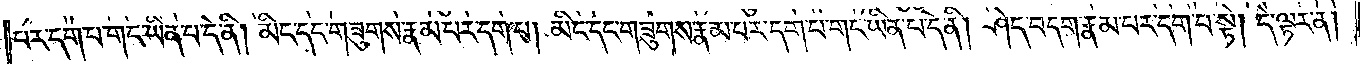པར་དག་པ་གང་ཡིན་པ་དེ་ནི། མིང་དང་གཟུགས་རྣམ་པར་དག་པ། མིང་དང་གཟུགས་རྣམ་པར་དག་པ་གང་ཡིན་པ་དེ་ནི། ཤེད་བདག་རྣམ་པར་དག་པ་སྟེ། དེ་ལྟར་ན།
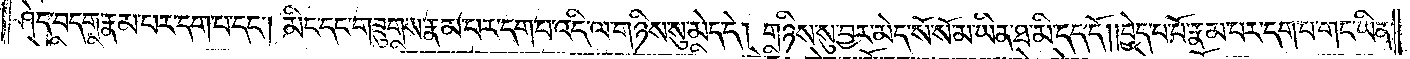ཤེད་བདག་རྣམ་པར་དག་པ་དང༌། མིང་དང་གཟུགས་རྣམ་པར་དག་པ་འདི་ལ་གཉིས་སུ་མེད་དེ། གཉིས་སུ་བྱར་མེད་སོ་སོ་མ་ཡིན་ཐ་མི་དད་དོ། །བྱེད་པ་པོ་རྣམ་པར་དག་པ་གང་ཡིན་
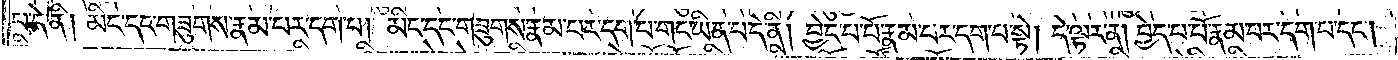པ་དེ་ནི། མིང་དང་གཟུགས་རྣམ་པར་དག་པ། མིང་དང་གཟུགས་རྣམ་པར་དག་པ་གང་ཡིན་པ་དེ་ནི། བྱེད་པ་པོ་རྣམ་པར་དག་པ་སྟེ། དེ་ལྟར་ན། བྱེད་པ་པོ་རྣམ་པར་དག་པ་དང༌།
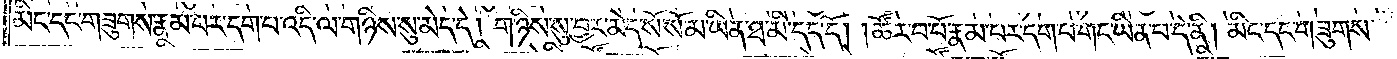མིང་དང་གཟུགས་རྣམ་པར་དག་པ་འདི་ལ་གཉིས་སུ་མེད་དེ། གཉིས་སུ་བྱར་མེད་སོ་སོ་མ་ཡིན་ཐ་མི་དད་དོ། །ཚོར་བ་པོ་རྣམ་པར་དག་པ་གང་ཡིན་པ་དེ་ནི། མིང་དང་གཟུགས་
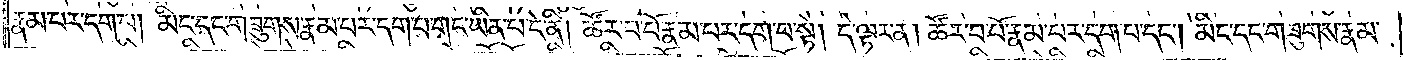རྣམ་པར་དག་པ། མིང་དང་གཟུགས་རྣམ་པར་དག་པ་གང་ཡིན་པ་དེ་ནི། ཚོར་བ་པོ་རྣམ་པར་དག་པ་སྟེ། དེ་ལྟར་ན། ཚོར་བ་པོ་རྣམ་པར་དག་པ་དང༌། མིང་དང་གཟུགས་རྣམ་
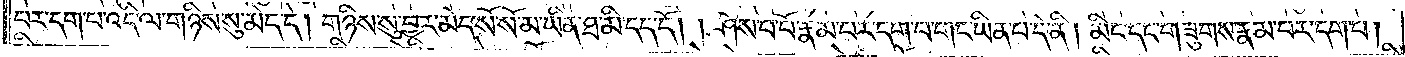པར་དག་པ་འདི་ལ་གཉིས་སུ་མེད་དེ། གཉིས་སུ་བྱར་མེད་སོ་སོ་མ་ཡིན་ཐ་མི་དད་དོ། །ཤེས་པ་པོ་རྣམ་པར་དག་པ་གང་ཡིན་པ་དེ་ནི། མིང་དང་གཟུགས་རྣམ་པར་དག་པ།
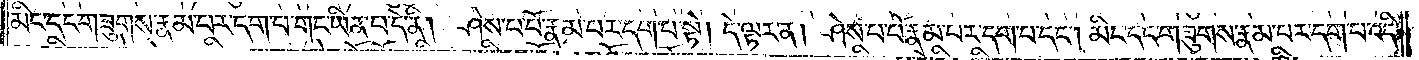མིང་དང་གཟུགས་རྣམ་པར་དག་པ་གང་ཡིན་པ་དེ་ནི། ཤེས་པ་པོ་རྣམ་པར་དག་པ་སྟེ། དེ་ལྟར་ན། ཤེས་པ་པོ་རྣམ་པར་དག་པ་དང༌། མིང་དང་གཟུགས་རྣམ་པར་དག་པ་འདི་
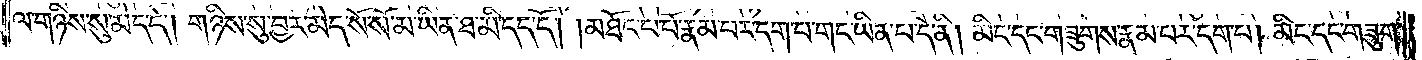ལ་གཉིས་སུ་མེད་དེ། གཉིས་སུ་བྱར་མེད་སོ་སོ་མ་ཡིན་ཐ་མི་དད་དོ། །མཐོང་བ་པོ་རྣམ་པར་དག་པ་གང་ཡིན་པ་དེ་ནི། མིང་དང་གཟུགས་རྣམ་པར་དག་པ། མིང་དང་གཟུགས་
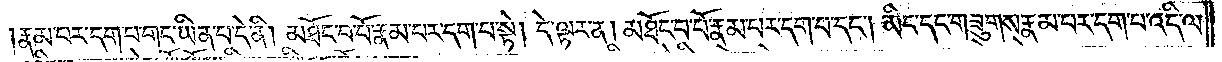རྣམ་པར་དག་པ་གང་ཡིན་པ་དེ་ནི། མཐོང་བ་པོ་རྣམ་པར་དག་པ་སྟེ། དེ་ལྟར་ན། མཐོང་བ་པོ་རྣམ་པར་དག་པ་དང༌། མིང་དང་གཟུགས་རྣམ་པར་དག་པ་འདི་ལ་
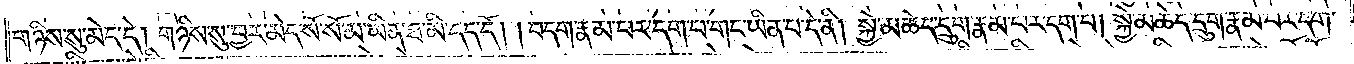གཉིས་སུ་མེད་དེ། གཉིས་སུ་བྱར་མེད་སོ་སོ་མ་ཡིན་ཐ་མི་དད་དོ། །བདག་རྣམ་པར་དག་པ་གང་ཡིན་པ་དེ་ནི། སྐྱེ་མཆེད་དྲུག་རྣམ་པར་དག་པ། སྐྱེ་མཆེད་དྲུག་རྣམ་པར་དག་
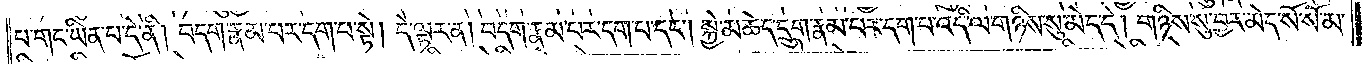པ་གང་ཡིན་པ་དེ་ནི། བདག་རྣམ་པར་དག་པ་སྟེ། དེ་ལྟར་ན། བདག་རྣམ་པར་དག་པ་དང༌། སྐྱེ་མཆེད་དྲུག་རྣམ་པར་དག་པ་འདི་ལ་གཉིས་སུ་མེད་དེ། གཉིས་སུ་བྱར་མེད་སོ་སོ་མ་
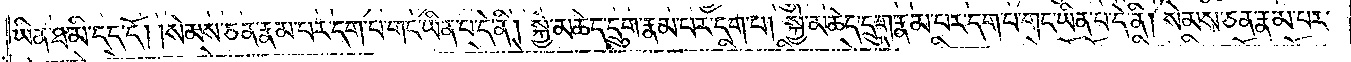ཡིན་ཐ་མི་དད་དོ། །སེམས་ཅན་རྣམ་པར་དག་པ་གང་ཡིན་པ་དེ་ནི། སྐྱེ་མཆེད་དྲུག་རྣམ་པར་དག་པ། སྐྱེ་མཆེད་དྲུག་རྣམ་པར་དག་པ་གང་ཡིན་པ་དེ་ནི། སེམས་ཅན་རྣམ་པར་
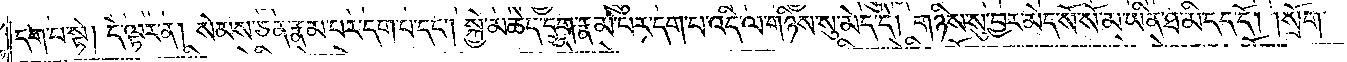དག་པ་སྟེ། དེ་ལྟར་ན། སེམས་ཅན་རྣམ་པར་དག་པ་དང༌། སྐྱེ་མཆེད་དྲུག་རྣམ་པར་དག་པ་འདི་ལ་གཉིས་སུ་མེད་དེ། གཉིས་སུ་བྱར་མེད་སོ་སོ་མ་ཡིན་ཐ་མི་དད་དོ། །སྲོག་
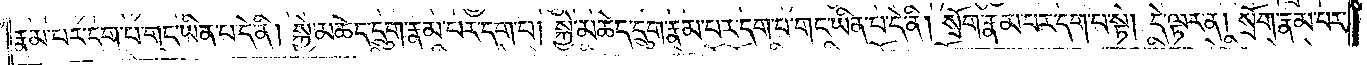རྣམ་པར་དག་པ་གང་ཡིན་པ་དེ་ནི། སྐྱེ་མཆེད་དྲུག་རྣམ་པར་དག་པ། སྐྱེ་མཆེད་དྲུག་རྣམ་པར་དག་པ་གང་ཡིན་པ་དེ་ནི། སྲོག་རྣམ་པར་དག་པ་སྟེ། དེ་ལྟར་ན། སྲོག་རྣམ་པར་
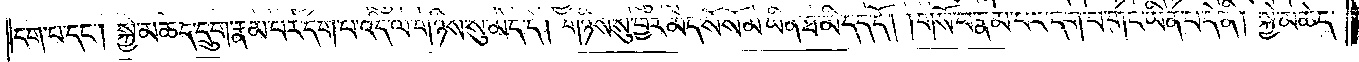དག་པ་དང༌། །སྐྱེ་མཆེད་དྲུག་རྣམ་པར་དག་པ་འདི་ལ་གཉིས་སུ་མེད་དེ། གཉིས་སུ་བྱར་མེད་སོ་སོ་མ་ཡིན་ཐ་མི་དད་དོ། །གསོ་བ་རྣམ་པར་དག་པ་གང་ཡིན་པ་དེ་ནི། སྐྱེ་མཆེད་
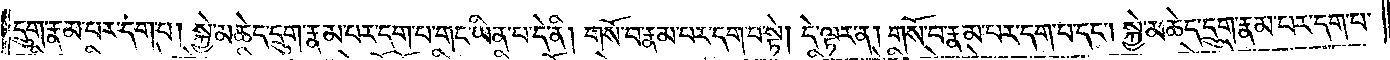དྲུག་རྣམ་པར་དག་པ། །སྐྱེ་མཆེད་དྲུག་རྣམ་པར་དག་པ་གང་ཡིན་པ་དེ་ནི། གསོ་བ་རྣམ་པར་དག་པ་སྟེ། དེ་ལྟར་ན། གསོ་བ་རྣམ་པར་དག་པ་དང༌། སྐྱེ་མཆེད་དྲུག་རྣམ་པར་དག་པ་
